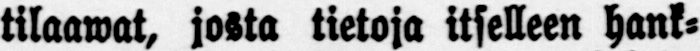tilaawat, josta tietoja itselleen hank-
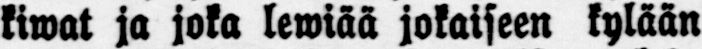kiwat ja joka lewiää jokaiseen kylään
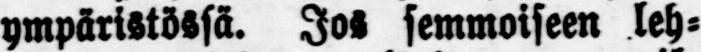ympäristössä. Jos semmoiseen leh-
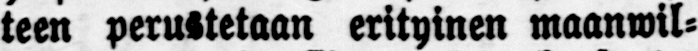teen perustetaan erityinen maanwil-
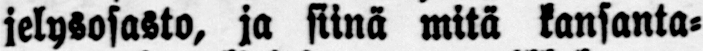jelysosasto, ja siinä mitä kansanta-
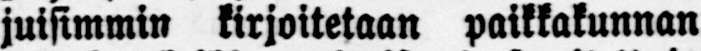juisimmin kirjoitetaan paikkakunnan
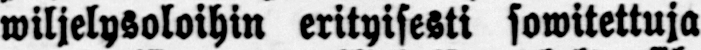wiljelysoloihin erityisesti sowitettuja
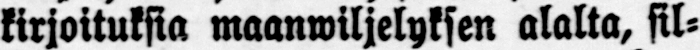kirjoituksia maanwiljelyksen alalta, sil-
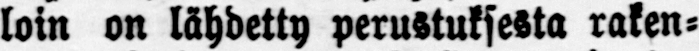loin on lähdetty perustuksesta raken-
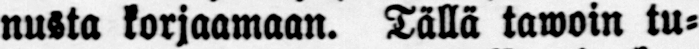nusta korjaamaan. Tällä tawoin tu-
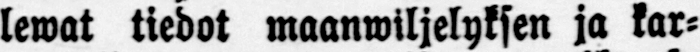lewat tiedot maanwiljelyksen ja kar-
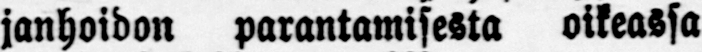janhoidon parantamisesta oikeassa
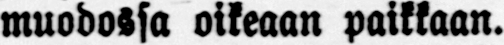muodossa oikeaan paikkaan.
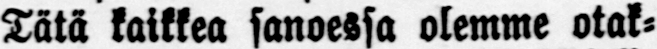Tätä kaikkea sanoessa olemme otak-
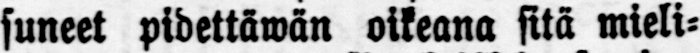suneet pidettäwän oikeana sitä mieli-
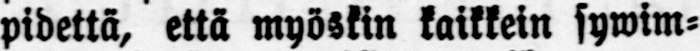pidettä, että myöskin kaikkein sywim-
